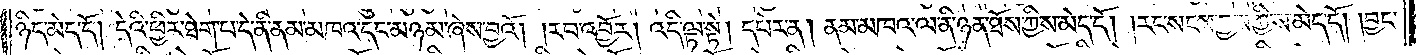ཉིད་མེད་དོ། །དེའི་ཕྱིར་ཐེག་པ་དེ་ནི་ནམ་མཁའ་དང་མཉམ་ཞེས་བྱའོ། །རབ་འབྱོར། འདི་ལྟ་སྟེ། དཔེར་ན། ནམ་མཁའ་ལ་ནི་ཉན་ཐོས་ཀྱི་ས་མེད་དོ། །རང་སངས་རྒྱས་ཀྱི་ས་མེད་དོ། །བྱང་
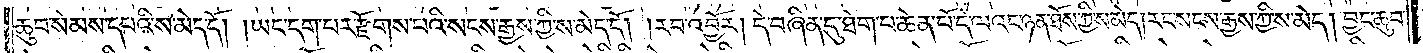ཆུབ་སེམས་དཔའི་ས་མེད་དོ། །ཡང་དག་པར་རྫོགས་པའི་སངས་རྒྱས་ཀྱི་ས་མེད་དོ། །རབ་འབྱོར། དེ་བཞིན་དུ་ཐེག་པ་ཆེན་པོ་དེ་ལའང་ཉན་ཐོས་ཀྱི་ས་མེད་དོ། །རང་སངས་རྒྱས་ཀྱི་ས་མེད་དོ། །བྱང་ཆུབ་
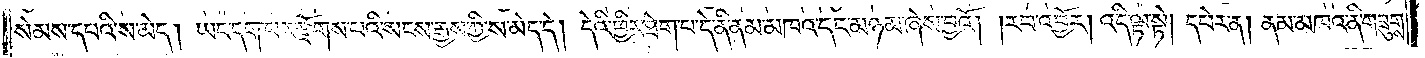སེམས་དཔའི་ས་མེད་དོ། །ཡང་དག་པར་རྫོགས་པའི་སངས་རྒྱས་ཀྱི་ས་མེད་དོ། །དེའི་ཕྱིར་ཐེག་པ་དེ་ནི་ནམ་མཁའ་དང་མཉམ་ཞེས་བྱའོ། །རབ་འབྱོར། འདི་ལྟ་སྟེ། དཔེར་ན། ནམ་མཁའ་ནི་གཟུགས་
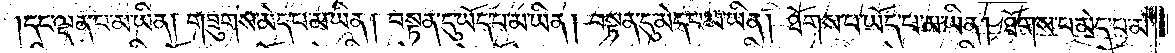དང་ལྡན་པ་མ་ཡིན། གཟུགས་མེད་པ་མ་ཡིན། བསྟན་དུ་ཡོད་པ་མ་ཡིན། བསྟན་དུ་མེད་པ་མ་ཡིན། ཐོགས་པ་ཡོད་པ་མ་ཡིན། ཐོགས་པ་མེད་པ་མ་
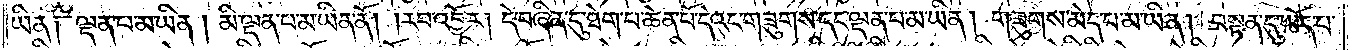ཡིན། ལྡན་པ་མ་ཡིན། མི་ལྡན་པ་མ་ཡིན་ནོ། །རབ་འབྱོར། དེ་བཞིན་དུ་ཐེག་པ་ཆེན་པོ་དེའང་གཟུགས་དང་ལྡན་པ་མ་ཡིན། གཟུགས་མེད་པ་མ་ཡིན། བསྟན་དུ་ཡོད་པ་
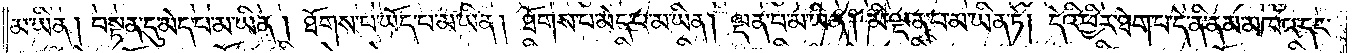མ་ཡིན། བསྟན་དུ་མེད་པ་མ་ཡིན། ཐོགས་པ་ཡོད་པ་མ་ཡིན། ཐོགས་པ་མེད་པ་མ་ཡིན། ལྡན་པ་མ་ཡིན། མི་ལྡན་པ་མ་ཡིན་ཏེ། དེའི་ཕྱིར་ཐེག་པ་དེ་ནི་ནམ་མཁའ་དང་
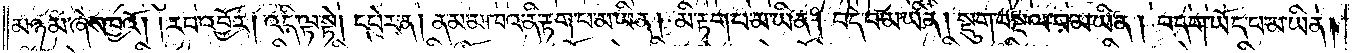མཉམ་ཞེས་བྱའོ། །རབ་འབྱོར། འདི་ལྟ་སྟེ། དཔེར་ན། ནམ་མཁའ་ནི་རྟག་པ་མ་ཡིན། མི་རྟག་པ་མ་ཡིན། བདེ་བ་མ་ཡིན། སྡུག་བསྔལ་བ་མ་ཡིན། བདག་ཡོད་པ་མ་ཡིན།
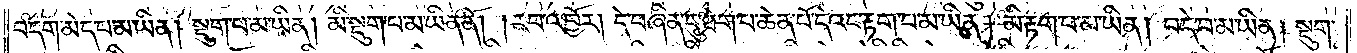བདག་མེད་པ་མ་ཡིན། སྡུག་པ་མ་ཡིན། མི་སྡུག་པ་མ་ཡིན་ནོ། །རབ་འབྱོར། དེ་བཞིན་དུ་ཐེག་པ་ཆེན་པོ་དེའང་རྟག་པ་མ་ཡིན། མི་རྟག་པ་མ་ཡིན། བདེ་བ་མ་ཡིན། སྡུག་
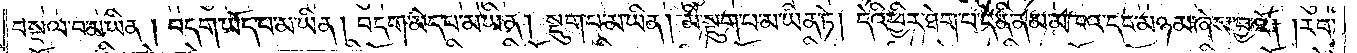བསྔལ་བ་མ་ཡིན། བདག་ཡོད་པ་མ་ཡིན། བདག་མེད་པ་མ་ཡིན། སྡུག་པ་མ་ཡིན། མི་སྡུག་པ་མ་ཡིན་ཏེ། དེའི་ཕྱིར་ཐེག་པ་དེ་ནི་ནམ་མཁའ་དང་མཉམ་ཞེས་བྱའོ། །རབ་
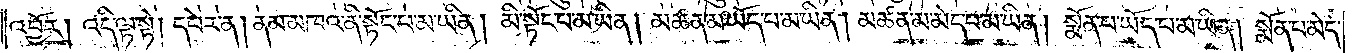འབྱོར། འདི་ལྟ་སྟེ། དཔེར་ན། ནམ་མཁའ་ནི་སྟོང་པ་མ་ཡིན། མི་སྟོང་པ་མ་ཡིན། མཚན་མ་ཡོད་པ་མ་ཡིན། མཚན་མ་མེད་པ་མ་ཡིན། སྨོན་པ་ཡོད་པ་མ་ཡིན། སྨོན་པ་མེད་
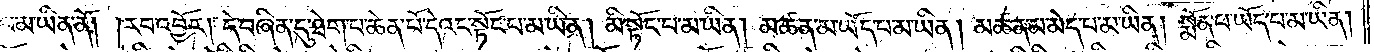པ་མ་ཡིན་ནོ། །རབ་འབྱོར། དེ་བཞིན་དུ་ཐེག་པ་ཆེན་པོ་དེའང་སྟོང་པ་མ་ཡིན། མི་སྟོང་པ་མ་ཡིན། མཚན་མ་ཡོད་པ་མ་ཡིན། མཚན་མ་མེད་པ་མ་ཡིན། སྨོན་པ་ཡོད་པ་མ་ཡིན།
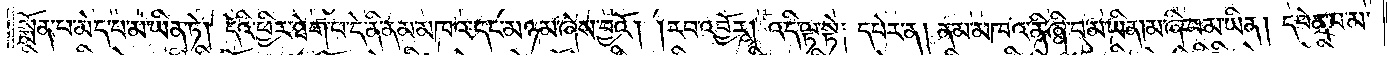སྨོན་པ་མེད་པ་མ་ཡིན་ཏེ། དེའི་ཕྱིར་ཐེག་པ་དེ་ནི་ནམ་མཁའ་དང་མཉམ་ཞེས་བྱའོ། །རབ་འབྱོར། འདི་ལྟ་སྟེ། དཔེར་ན། ནམ་མཁའ་ནི་ཞི་བ་མ་ཡིན། མ་ཞི་བ་མ་ཡིན། དབེན་པ་མ་
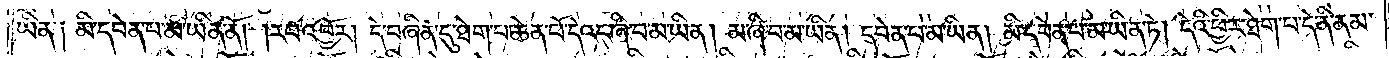ཡིན། མི་དབེན་པ་མ་ཡིན་ནོ། །རབ་འབྱོར། དེ་བཞིན་དུ་ཐེག་པ་ཆེན་པོ་དེའང་ཞི་བ་མ་ཡིན། མ་ཞི་བ་མ་ཡིན། དབེན་པ་མ་ཡིན། མི་དབེན་པ་མ་ཡིན་ཏེ། དེའི་ཕྱིར་ཐེག་པ་དེ་ནི་ནམ་
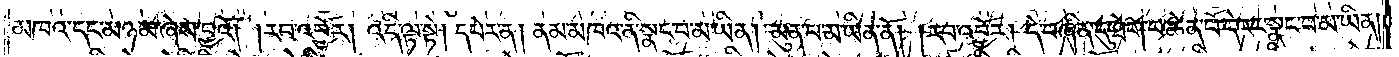མཁའ་དང་མཉམ་ཞེས་བྱའོ། །རབ་འབྱོར། འདི་ལྟ་སྟེ། དཔེར་ན། ནམ་མཁའ་ནི་སྣང་བ་མ་ཡིན། མུན་པ་མ་ཡིན་ནོ། །རབ་འབྱོར། དེ་བཞིན་དུ་ཐེག་པ་ཆེན་པོ་དེའང་སྣང་བ་མ་ཡིན།
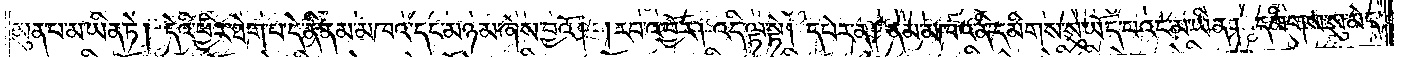མུན་པ་མ་ཡིན་ཏེ། དེའི་ཕྱིར་ཐེག་པ་དེ་ནི་ནམ་མཁའ་དང་མཉམ་ཞེས་བྱའོ། །རབ་འབྱོར། འདི་ལྟ་སྟེ། དཔེར་ན། ནམ་མཁའ་ནི་དམིགས་སུ་ཡོད་པའང་མ་ཡིན། དམིགས་སུ་མེད་
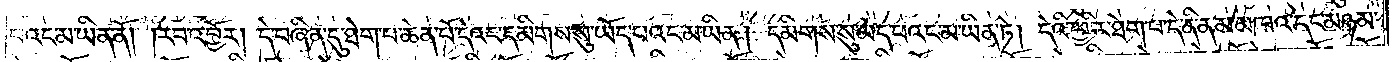པའང་མ་ཡིན་ནོ། །རབ་འབྱོར། དེ་བཞིན་དུ་ཐེག་པ་ཆེན་པོ་དེའང་དམིགས་སུ་ཡོད་པའང་མ་ཡིན། དམིགས་སུ་མེད་པའང་མ་ཡིན་ཏེ། དེའི་ཕྱིར་ཐེག་པ་དེ་ནི་ནམ་མཁའ་དང་མཉམ་
